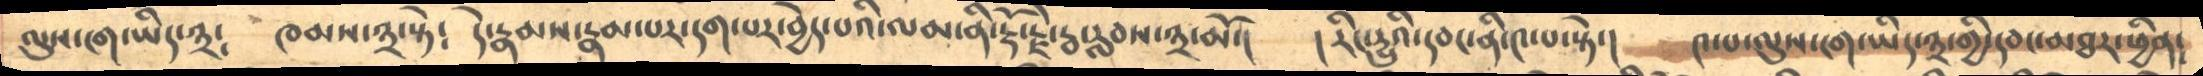ལུས་ངག་ཡིད་༣༴   ཁམས་༣་སྟེ༴   དེ་རྣམས་རྣམ་པར་དག་པར་བྱེད་པའི་ལམ་ནི་རྡོ་རྗེ་རྦ་རླབས་༣་མོ་།    །རིང་དྱུའི་དབང་ནི་༤་པ་སྟེ་།   ༤་པ་ལུས་ངག་ཡིད་༣་ཀྱི་དབང་མཐར་ཕྱིན་
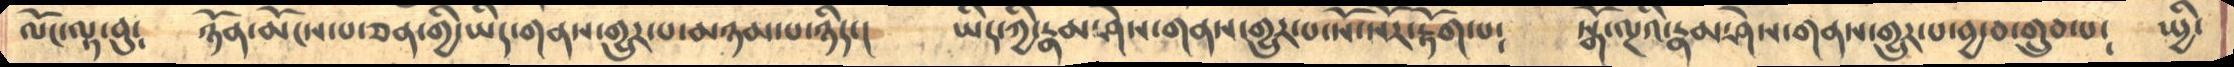ལོང་ལྟ་བུ༴     ཉོན་མོངས་པ་ཅན་གྱི་ཡིད་གནས་གྱུར་པ་མཉམ་པ་ཉིད་།    ཡིད་ཀྱི་རྣམ་ཤེས་གནས་གྱུར་པ་སོ་སོར་རྟོག་པ༴  སྒོ་ལྔའི་རྣམ་ཤེས་གནས་གྱུར་པ་བྱ་བ་གྲུབ་པ༴  སྤྱི་
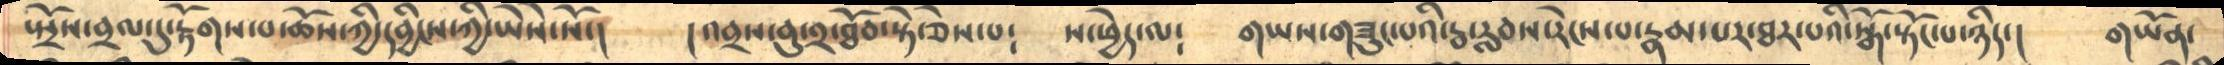སྤྲོས་བྲལ་དུ་རྟོགས་པ་ཆོས་ཀྱི་དབྱིངས་ཀྱི་ཡཻས་སོ་།     །འབྲས་བུ་༢་ཐོབ་སྟེ་ཅེས་པ༴    ས་ཕྱེད་ལ༴  གཡས་གཟུང་པའི་རྦ་རླབས་རེངས་པ་རྣམ་པར་ཐར་པའི་སྒོ་སྟོང་པ་ཉིད་།   གཡོན་
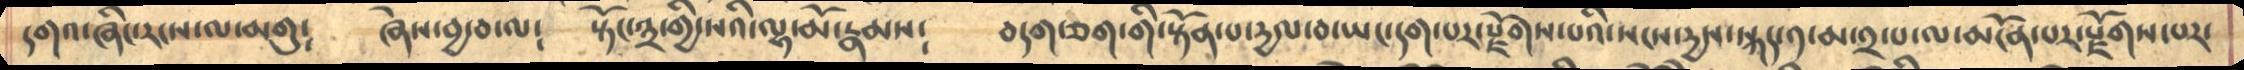དགའ་ཞིང་རངས་ལ་མགུ༴   ཞེས་བྱ་བ་ལ༴   སྟོང་༣་གྱི་སའི་ལྷ་མོ་རྣམས༴     བདག་ཅག་གི་སྟོན་པ་དྱལ་བ་ཡང་དག་པར་རྫོགས་པའི་སངས་དྱས་སྐད་༡་མ་༢་པ་ལ་མངོན་པར་རྫོགས་པར་
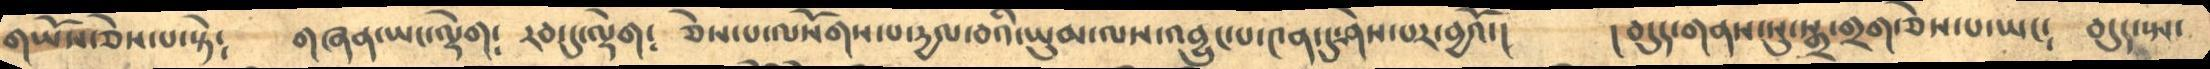གཡོས་ཅེས་པ་སྟེ༴    གཞན་ཡང་ལྡེག༴   རབ་དུ་ལྡེག༴  ཅེས་པ་ལསོགས་པ་དྱལ་བའི་ཡུམ་ལས་འབྱུང་པ་༤ན་དུ་ཤེས་པར་བྱའོ་།  ། བདུད་གནས་སུ་སྒྲ་གྲག་ཅེས་པ་ཡང༴  བདུད་སྤ་
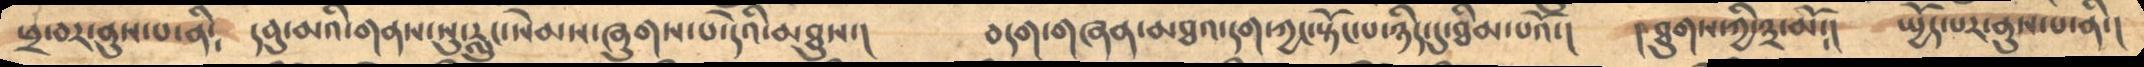ཕྲ་བར་ནུས་པ་ནི༴   དབུ་མའི་གནས་སུ་རླུང་སེམས་ཞུགས་པ་དེའི་མཐུས་།    བདག་གཞན་མཐའ་དག་ཀྱང་སྟོང་པ་ཉིད་དུ་ཐིམ་པའོ་།   ། ཐུགས་ཀྱི་༣་མོ༴།  སྤྱོད་པར་ནུས་པ་ནི་།
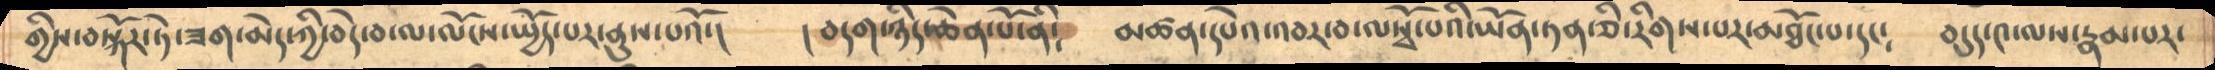གྱིས་བསྐོར་ཏེ་ཟག་མེད་ཀྱི་བདེ་བ་ལ་ལོངས་སྤྱོད་པར་ནུས་པའོ་།    ། བདག་ཉིད་ཆེན་པོ་ནི༴  མཚན་དཔེའ་འབར་བ་ལསྭོ་པའི་ཡོན་ཏན་ཅི་རིགས་པར་མཐོང་པ་དང༴   བདུད་༤་ལས་རྣམ་པར་
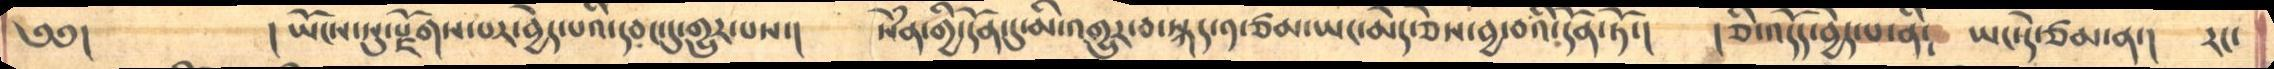༄༅།            ། ཡོངས་སུ་རྫོགས་པར་བྱེད་པའི་དབང་དུ་གྱུར་པས་།    སེཾན་གྱི་དོན་དུ་མི་འགྱུར་བ་སྐད་༡་ཙམ་ཡང་མེད་ཅེས་བྱ་བའི་དོན་ཏོ་།   །ཅི་འདོད་བྱེད་པ་ནི༴  ཡང་དེ་ཙམ་ན་།  རང་
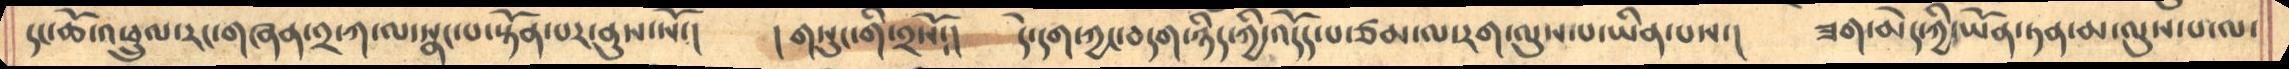དང་ཆོ་འཕྲུལ་རང་གཞན་༢་ཀ་ལ་སྣང་པ་སྟོན་པར་ནུས་སོ་།    །གསུང་གི་༢སོ༴།   དེ་དག་ཀྱང་བདག་ཉིད་ཀྱི་འདོད་པ་ཙམ་ལ་རག་ལུས་པ་ཡིན་པས་།     ཟག་མེད་ཀྱི་ཡོན་ཏན་མ་ལུས་པ་ལ་
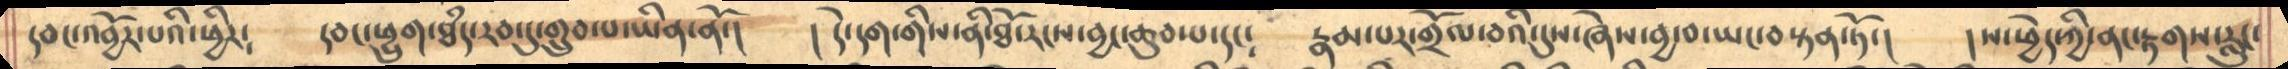དབང་འབྱོར་པའི་ཕྱིར༴     དབང་ཕྱུག་ཐཾད་རབ་དུ་གྲུབ་པ་ཡིན་ནོ་།   ། དེ་དག་གིས་ནི་ཐོ་རངས་བྱང་ཆུབ་པ་དང༴   རྣམ་པར་གྲོལ་བའི་དུས་ཞེས་བྱ་བ་ཡང་བསྟན་ཏོ་།   ། ས་ཕྱེད་ཀྱི་ནང་རྟགས་རླུང་
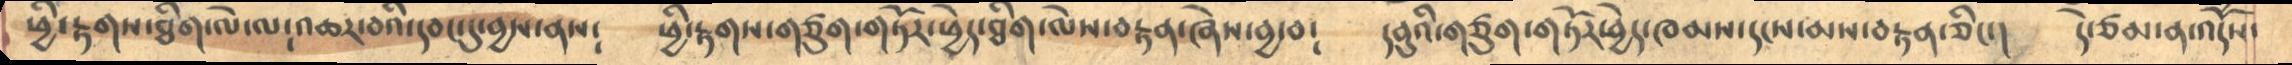ཕྱི་རྟགས་ཐིག་ལེ་ལ་འཆར་བའི་དབང་དུ་བྱས་ནས༴  ཕྱི་རྟགས་གཙུག་ཏོར་ཕྱེད་ཐིག་ལེས་བརྟན་ཞེས་བྱ་བ༴  དབུའི་གཙུག་གཏོར་ཕྱེད་ཁམས་དངས་མས་བརྟན་ཅིང་།   དེ་ཙམ་ན་འདོཾས་
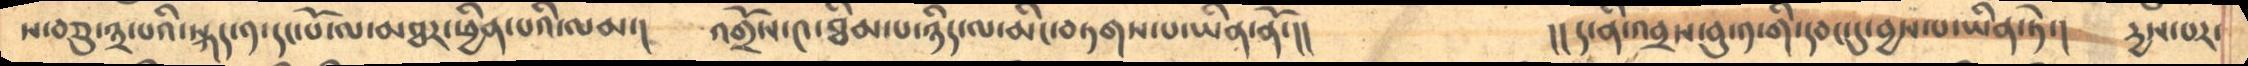ས་བཅུ་༣་པའི་སྐད་༡་དང་པོ་ལ་མཐར་ཕྱིན་པའི་ལམ་།   འགྲོས་༤་ཐིམ་པ་ཉིད་ལ་མིང་བཏགས་པ་ཡིན་ནོ་།།           །།ད་ནི་འབྲས་བུ་༡་གི་དབང་དུ་བྱས་པ་ཡིན་ཏེ་།   དྱས་པར་
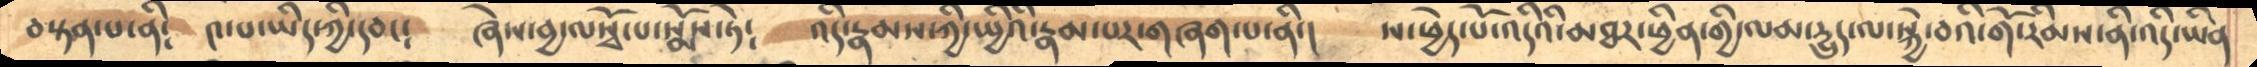བསྟན་པ་ནི༴   ༤་པ་ཡིད་ཀྱི་དབང༴    ཞེས་བྱ་ལསྭོ་པ་སྨོས་ཏེ༴    འདི་རྣམས་ཀྱི་སྤྱིའི་རྣམ་པར་གཞག་པ་ནི་།   ས་ཕྱེད་པོ་འདིའི་མཐར་ཕྱིན་གྱི་ལམ་དྱུད་ལ་སྐྱེ་བའི་གོ་རིམས་ནི་འདི་ཡིན
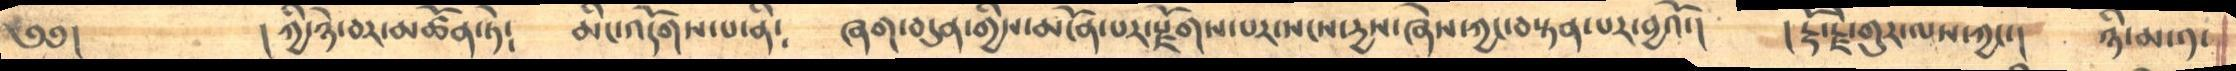༄༅།        ། ཀྱི་ཉེ་བར་མཚོན་ཏེ༴     མིང་འདོགས་པ་ནི༴    ཞག་བདུན་གྱིས་མངོན་པར་རྫོགས་པར་སངས་དྱས་ཞེས་ཀྱང་བསསྟན་པར་བྱའོ་།   །རྡོ་རྗེ་གུར་ལས་ཀྱང་།   ཉི་མ་༡་
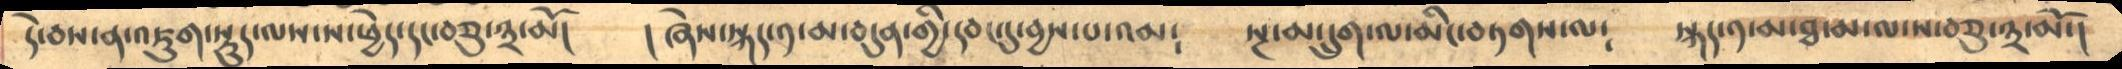དེ་བས་ན་འཇུག་སྡུད་ལས་ས་ཕྱེད་དང་བཅུ་༣་མོ།     ། ཞེས་སྐད་༡་མ་བདུན་གྱི་དབང་དུ་བྱས་པ་འམ༴    སྔ་མ་དྲུག་ལ་མིང་བཏགས་ལ༴    སྐད་༡་མ་ཐ་མ་ལ་ས་བཅུ་༣་མོ་།
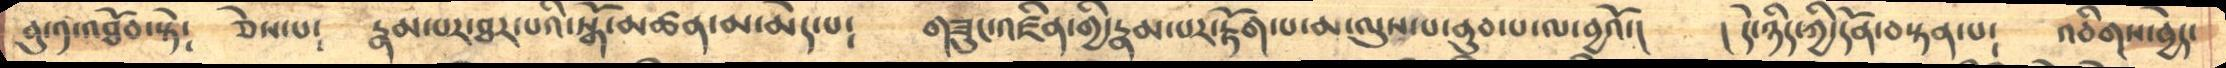བུ་༡་འཐོབ་སྟེ༴    ཅེས་པ༴   རྣམ་པར་ཐར་པའི་སྒོ་མཚན་མ་མེད་པ༴    གཟུང་འཛིན་གྱི་རྣམ་པར་རྟོག་པ་མ་ལུས་པ་ནུབ་པ་ལ་བྱའོ་།    ། དེ་ཉིད་ཀྱི་དོན་བསྟན་པ༴   འབིགས་བྱེད་
